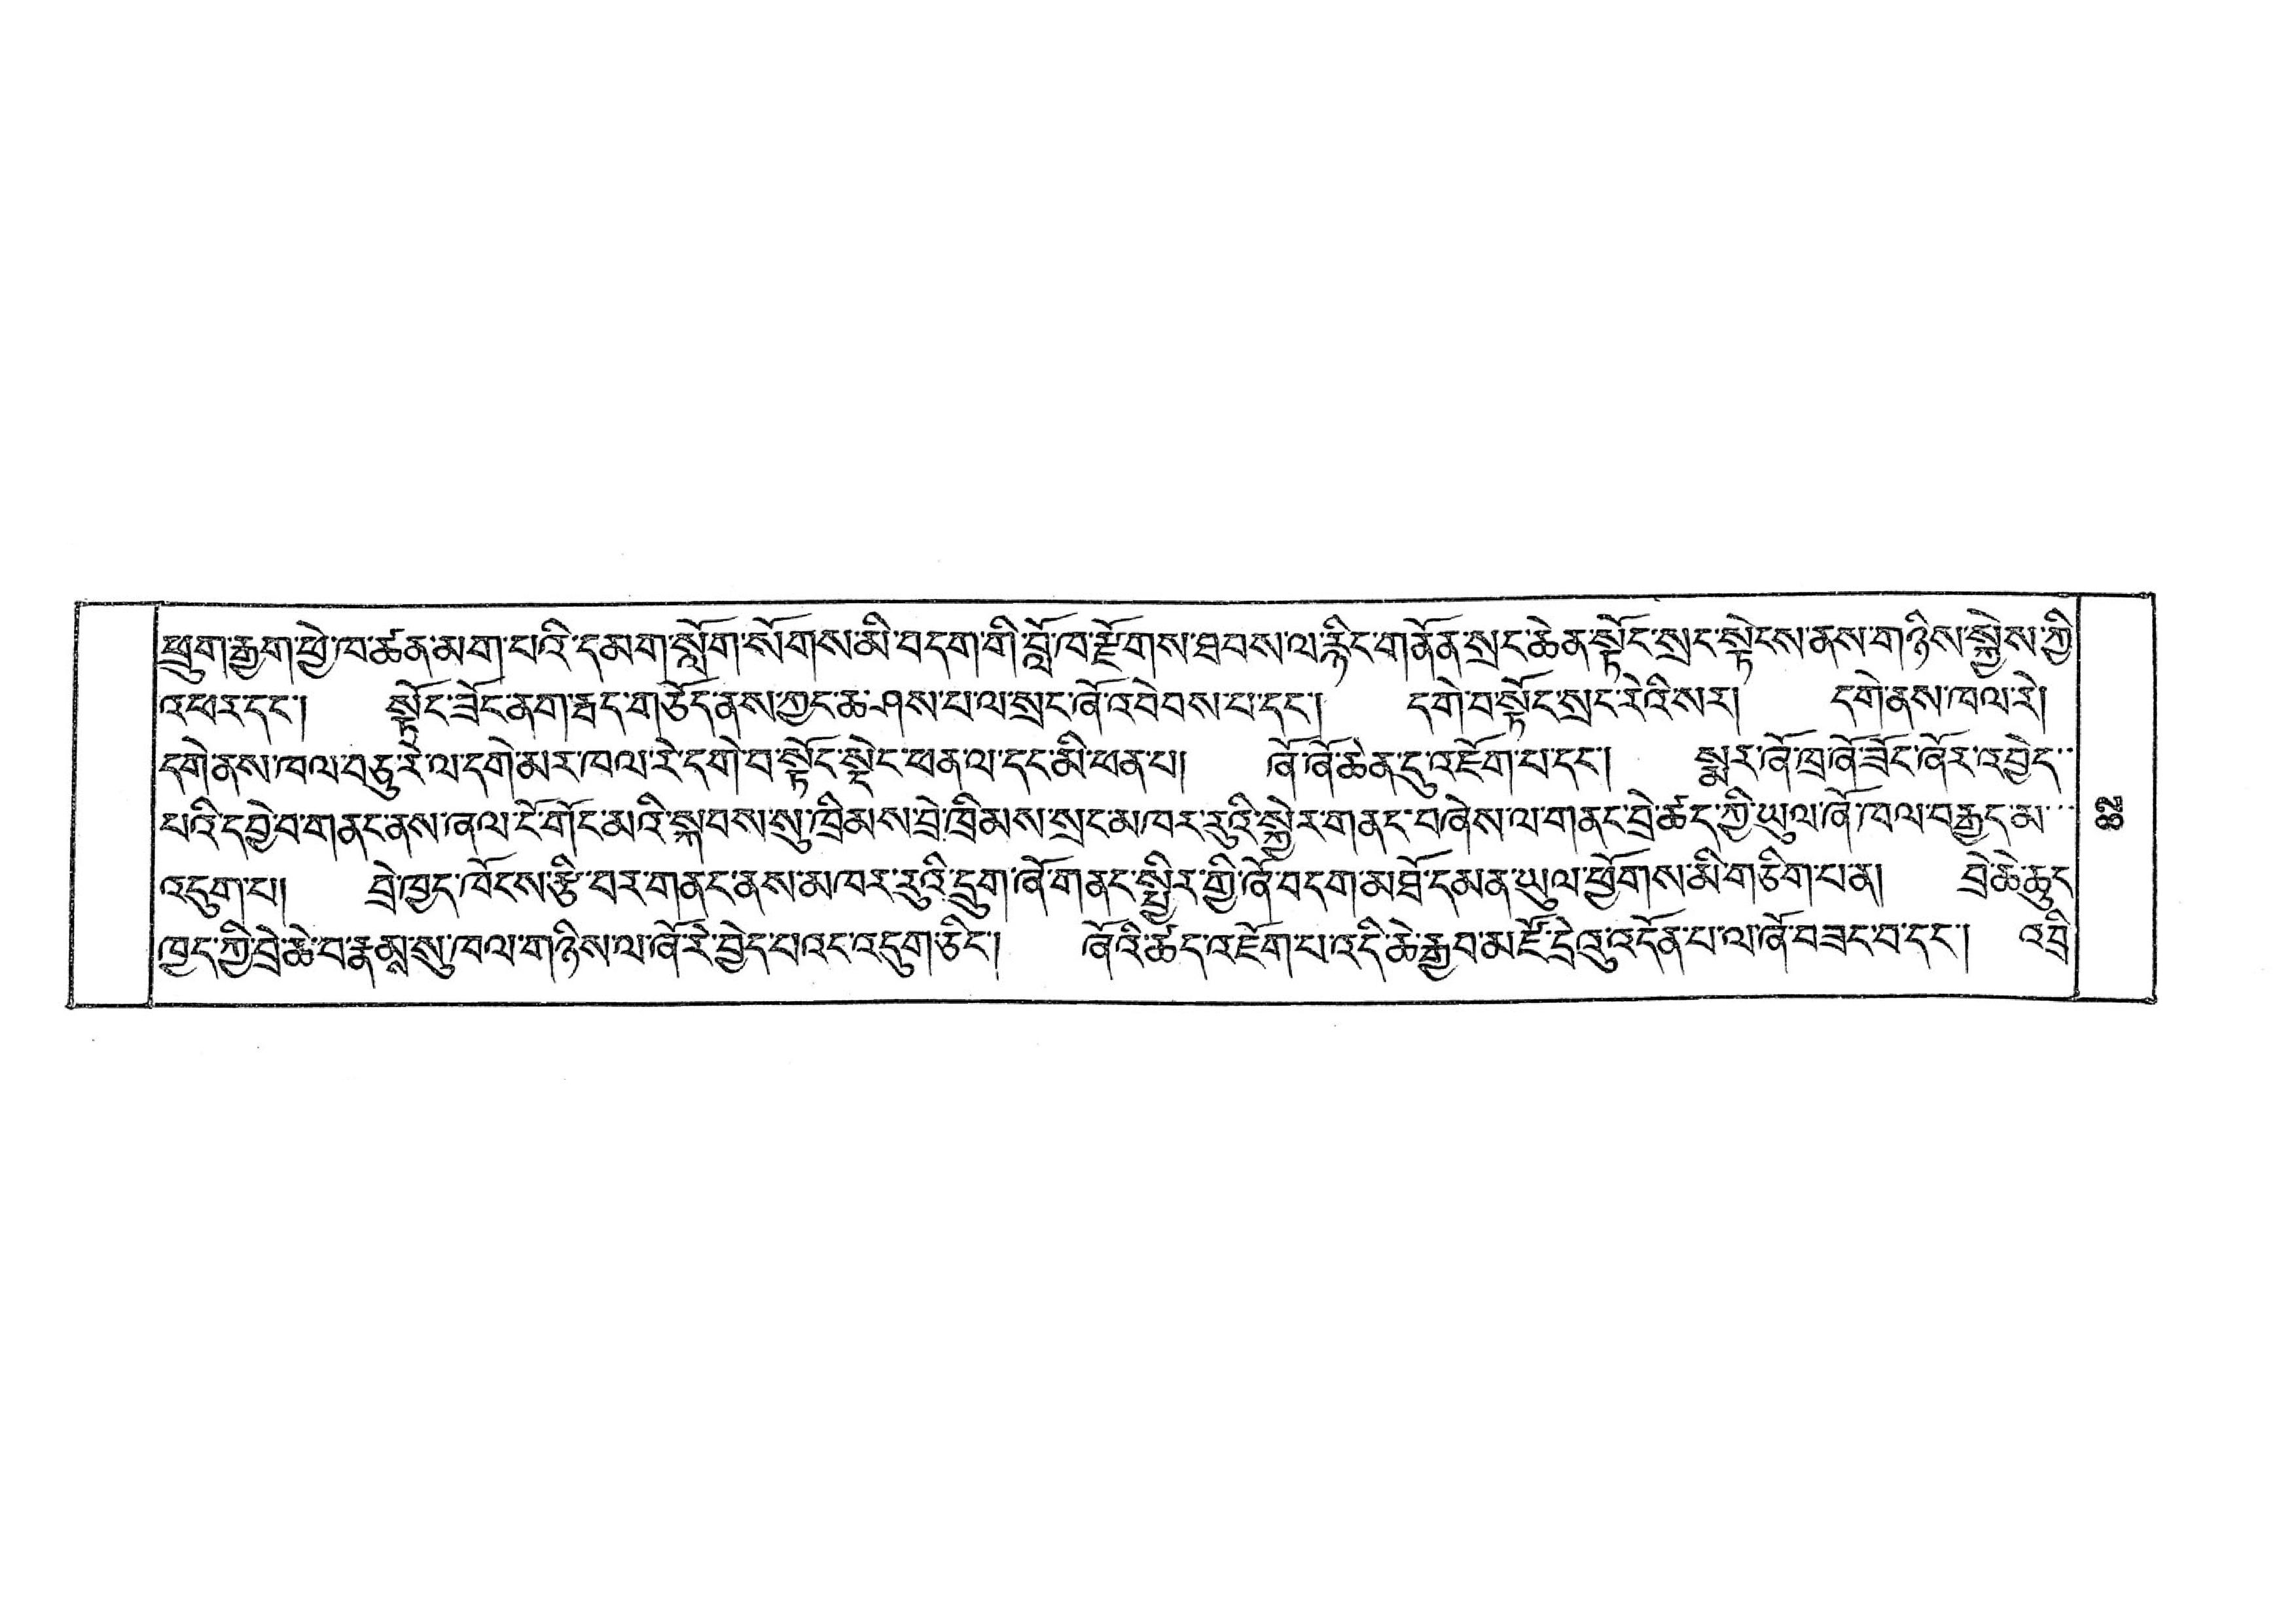ཕྲུག་རྒྱག་ཕྱེ་ཁ་ཚན་མག་པའི་དམག་སློག་སོགས་མི་བདག་གི་སློ་ཁ་རྫོགས་ཐབས་ལ་རྙིང་གནོན་སྲང་ཆེན་སྟོང་སྲང་སྟེངས་ནས་གཉིས་སྐྱེས་ཀྱི་
འཕར་དང་། སྟོང་ཟོང་ནག་རྦད་གཅོད་ནས་ཀྱང་ཆ་ཤས་པ་ལ་སྲང་ཞོ་འབེབས་པ་དང་། དགེ་བ་སྟོང་སྲང་རེའི་སར། དགེ་ནས་ཁལ་རེ།
དགེ་ནས་ཁལ་བཅུ་རེ་ལ་དགེ་མར་ཁལ་རེ་དགེ་བ་སྟོང་སྡེང་ཕན་ལ་དང་མི་ཕན་པ། ཞོ་ཞོ་ཆེན་དུ་འཇོག་པ་དང་། སྨར་ཞོ་ཁྲ་ཞོ་ཟོང་ཞོར་འབྱེད་་
པའི་དབྱེ་བ་གནང་ནས་ཞལ་ངོ་གོང་མའི་སྐབས་སུ་ཁྲིམས་བྲེ་ཁྲིམས་སྲང་མཁར་རུའི་སྐྱེར་གནང་བཞེས་ལ་གནང་བྲེ་ཚད་ཀྱི་ཡུལ་ཞོ་ཁལ་བརྒྱད་མ་་་
འདུག་པ། བྲེ་བྱེད་ཁོངས་རྩི་བར་གནང་ནས་མཁར་རུའི་དྲུག་ཞོ་གནང་སྤྱིར་གྱི་ཞོ་བདག་མཐོ་དམན་ཡུལ་ཕྱོགས་མི་གཅིག་པ་ན། བྲེ་ཆེ་ཆུང་
ཁྱད་ཀྱི་བྲེ་ཆེ་བ་རྣམས་སུ་ཁལ་གཉིས་ལ་ཞོ་རེ་བྱེད་པའང་འདུག་ཅིང་། ཞོའི་ཚད་འཇོག་པ་འདི་ཆེ་རྒྱབ་མཛོ་དྲེའུ་འདོན་པ་ལ་ཞོ་བཟང་བ་དང་། འབྲ་
